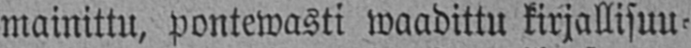mainittu, pontewasti waadittu kirjallisuu-
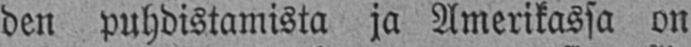den puhdistamista ja Amerikassa on
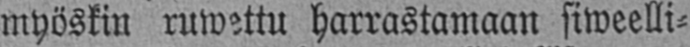myöskin ruwettu harrastamaan siweelli-
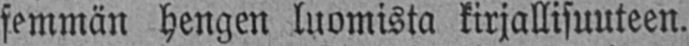semmän hengen luomista kirjallisuuteen.
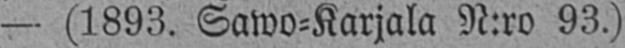—(1893. Sawo-Karjala N:ro 93.)
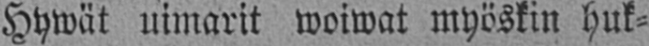Hywät uimarit woiwat myöskin huk-
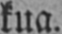kua.
